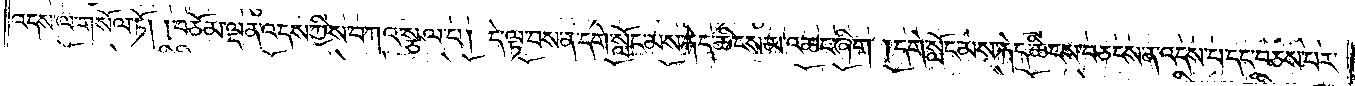འདས་ལ་གསོལ་ཏོ། །བཅོམ་ལྡན་འདས་ཀྱིས་བཀའ་སྩལ་པ། དེ་ལྟ་བས་ན་དགེ་སློང་མས་རྐེད་ཆིངས་མ་འཆང་ཞིག །དགེ་སློང་མས་རྐེད་ཆིངས་བཅངས་ན་འདས་པ་དང་བཅས་པར་
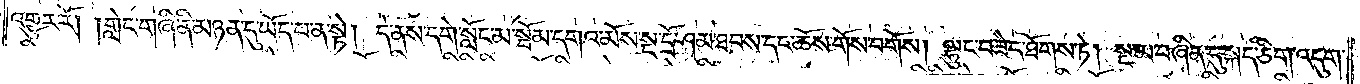འགྱུར་རོ། །གླེང་གཞི་ནི་མཉན་དུ་ཡོད་པ་ན་སྟེ། དེ་ནས་དགེ་སློང་མ་སྦོམ་དགའ་མོས་སྔ་དྲོ་ཤམ་ཐབས་དང་ཆོས་གོས་བགོས། ལྷུང་བཟེད་ཐོགས་ཏེ། སྔ་མ་བཞིན་དུ་སྐད་ཅིག་འདུག་
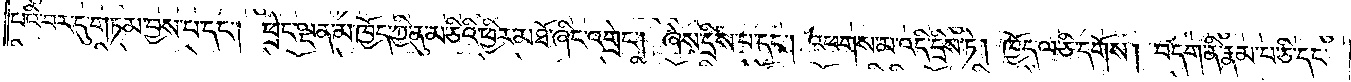པའི་བར་དུ་གཏམ་བྱས་པ་དང༌། ཕྲེང་ལྡན་མ་ཁྱོད་ཀྱི་ནུ་མ་ཅིའི་ཕྱིར་མཐོ་ཞིང་འགྲེང༌། ཞེས་དྲིས་པ་དང༌། འཕགས་མ་འདི་དྲིས་ཏེ། ཁྱོད་ལ་ཅི་དགོས། བདག་ནི་རྣམ་པ་ཅི་དང་
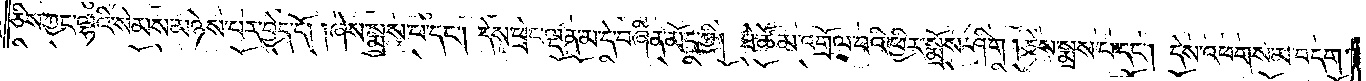ཅིས་ཀྱང་ལྷའི་སེམས་མཉེས་པར་བྱེད་དོ། །ཞེས་སྨྲས་པ་དང༌། དེས་ཕྲེང་ལྡན་མ་དེ་བཞིན་མོད་ཀྱི། ཐེ་ཚོམ་འགྲོལ་བའི་ཕྱིར་སྨྲོས་ཤིག །ཅེས་སྨྲས་པ་དང༌། དེས་འཕགས་མ་བདག་
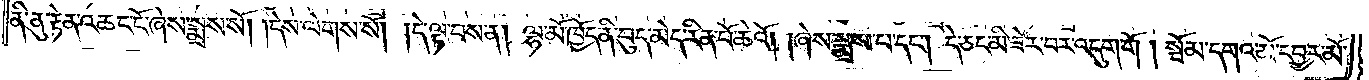ནི་ནུ་རྟེན་འཆང་ངོ་ཞེས་སྨྲས་སོ། །དེས་ལེགས་སོ། །དེ་ལྟ་བས་ན། ལྷ་མོ་ཁྱོད་ནི་བུད་མེད་རིན་པོ་ཆེའོ། །ཞེས་སྨྲས་པ་དང༌། དེ་ཅང་མི་ཟེར་བར་འདུག་གོ། སྦོམ་དགའ་མོ་དབྱར་མོ་
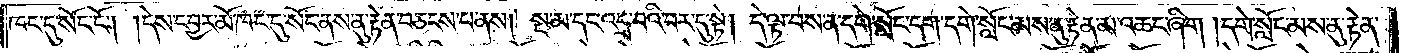ཁང་དུ་སོང་ངོ༌། །དེས་དབྱར་མོ་ཁང་དུ་སོང་ནས་ནུ་རྟེན་བཅངས་པ་ནས། སྔ་མ་དང་འདྲ་བའི་བར་དུ་སྟེ། དེ་ལྟ་བས་ན་དགེ་སློང་དག་དགེ་སློང་མས་ནུ་རྟེན་མ་འཆང་ཞིག །དགེ་སློང་མས་ནུ་རྟེན་
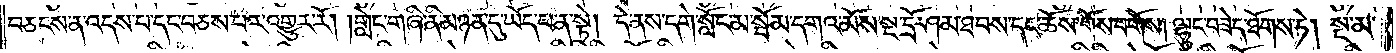བཅངས་ན་འདས་པ་དང་བཅས་པར་འགྱུར་རོ། །གླེང་གཞི་ནི་མཉན་དུ་ཡོད་པ་ན་སྟེ། དེ་ནས་དགེ་སློང་མ་སྦོམ་དགའ་མོས་སྔ་དྲོ་ཤམ་ཐབས་དང་ཆོས་གོས་བགོས། ལྷུང་བཟེད་ཐོགས་ཏེ། སྔ་མ་
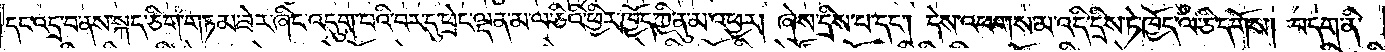དང་འདྲ་བ་ནས་སྐད་ཅིག་གཏམ་ཟེར་ཞིང་འདུག་པའི་བར་དུ་ཕྲེང་ལྡན་མ་ལ་ཅིའི་ཕྱིར་ཁྱོད་ཀྱི་ནུ་མ་འཕྱར། ཞེས་དྲིས་པ་དང༌། དེས་འཕགས་མ་འདི་དྲིས་ཏེ་ཁྱོད་ལ་ཅི་དགོས། བདག་ནི་
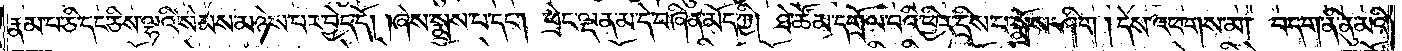རྣམ་པ་ཅི་དང་ཅིས་ལྷའི་སེམས་མཉེས་པར་བྱེད་དོ། །ཞེས་སྨྲས་པ་དང༌། ཕྲེང་ལྡན་མ་དེ་བཞིན་མོད་ཀྱི། ཐེ་ཚོམ་དགྲོལ་བའི་ཕྱིར་དྲིས་པ་སྨྲོས་ཤིག །དེས་འཕགས་མ། བདག་ནི་ནུ་མའི་
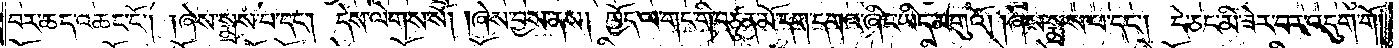བར་ཆད་འཆང་ངོ༌། །ཞེས་སྨྲས་པ་དང༌། དེས་ལེགས་སོ། །ཞེས་བྱས་ནས། ཁྱོད་ལ་གང་གི་བཙུན་མོ་དག་དགའ་ཞིང་ཡིད་མགུའོ། །ཞེས་སྨྲས་པ་དང༌། ངེ་ཅང་མི་ཟེར་བར་འདུག་གོ།
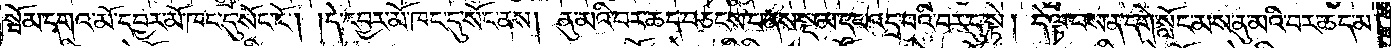སྦོམ་དགའ་མོ་དབྱར་མོ་ཁང་དུ་སོང་ངོ༌། །དེ་དབྱར་མོ་ཁང་དུ་སོང་ནས། ནུ་མའི་བར་ཆད་བཅངས་པ་ནས་སྔ་མ་དང་འདྲ་བའི་བར་དུ་སྟེ། དེ་ལྟ་བས་ན་དགེ་སློང་མས་ནུ་མའི་བར་ཆད་མ་
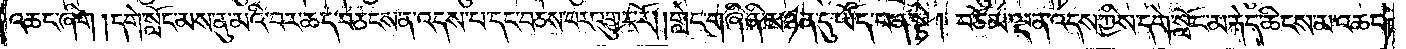འཆང་ཞིག །དགེ་སློང་མས་ནུ་མའི་བར་ཆད་བཅངས་ན་འདས་པ་དང་བཅས་པར་འགྱུར་རོ། །གླེང་གཞི་ནི་མཉན་དུ་ཡོད་པ་ན་སྟེ། བཅོམ་ལྡན་འདས་ཀྱིས་དགེ་སློང་མ་རྐེད་ཆིངས་མ་འཆད་
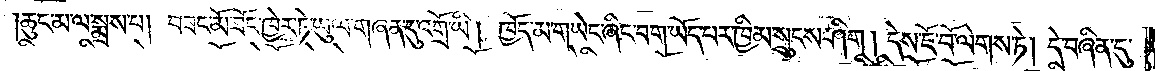ཆུང་མ་ལ་སྨྲས་པ། བཟང་མོ་ཟོང་ཁྱེར་ཏེ་ཡུལ་གཞན་དུ་འགྲོ་ཡི། ཁྱོད་མ་གཡེང་ཞིང་བག་ཡོད་པར་ཁྱིམ་སྲུངས་ཤིག །དེས་ཇོ་བོ་ལེགས་ཏེ། དེ་བཞིན་དུ་
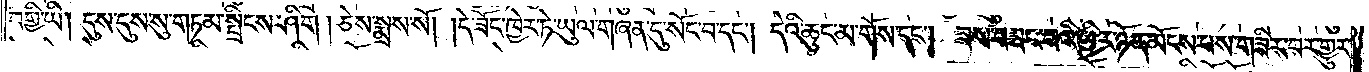བགྱི་ཡི། དུས་དུས་སུ་གཏམ་སྤྲིངས་ཤིག །ཅེས་སྨྲས་སོ། །དེ་ཟོང་ཁྱེར་ཏེ་ཡུལ་གཞན་དུ་སོང་བ་དང༌། དེའི་ཆུང་མ་གོས་དང༌། ཟས་བཟང་བའི་ཕྱིར་ཉོན་མོངས་པས་གཟིར་བར་གྱུར་
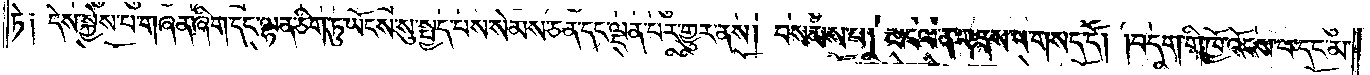ཏེ། དེས་སྐྱེས་པ་གཞན་ཞིག་དང་ལྷན་ཅིག་ཏུ་ཡོངས་སུ་སྤྱད་པས་སེམས་ཅན་དང་ལྡན་པར་གྱུར་ནས། བསམས་པ། མངལ་ན་གནས་པ་གསད་དོ། །བདག་གི་ཁྱོ་འོངས་པ་དང་མ་
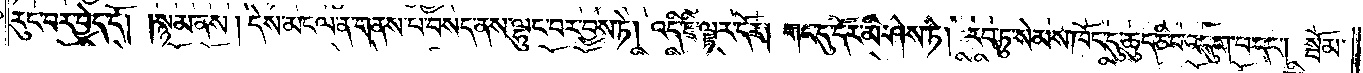རུང་བར་བྱེད་དོ། །སྙམ་ནས། དེས་མངལ་ན་གནས་པ་བསད་ནས་ལྷུང་བར་བྱས་ཏེ། འདི་ཇི་ལྟར་དོར། གང་དུ་དོར་མི་ཤེས་ཏེ། རབ་ཏུ་སེམས་ཁོང་དུ་ཆུད་ཅིང་འདུག་པ་དང༌། སྦོམ་
